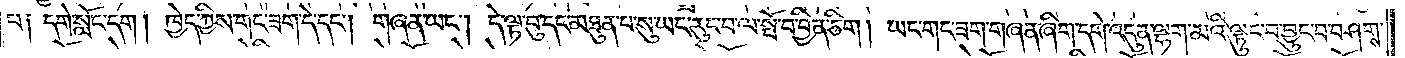པ། དགེ་སློང་དག། ཁྱེད་ཀྱིས་གང་ཟག་དེ་དང༌། གཞན་ཡང༌། དེ་ལྟ་བུ་དང་མཐུན་པ་སུ་ཡང་རུང་བ་ལ་སྤོ་བ་བྱིན་ཅིག། ཡང་གང་ཟག་གཞན་ཞིག་དགེ་འདུན་ལྷག་མའི་ལྟུང་བ་བྱུང་བ་བཤགས་
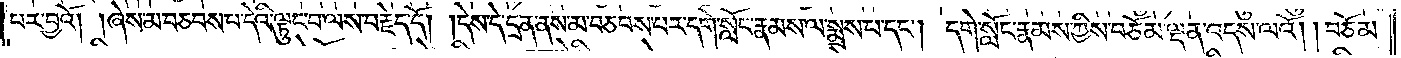པར་བྱའོ། །ཞེས་མ་བཅབས་པ་དེའི་ལྟུང་བ་ལས་བརྗེད་དོ། །དེས་དེ་དྲན་ནས་མ་བཅབས་པར་དགེ་སློང་རྣམས་ལ་སྨྲས་པ་དང༌། དགེ་སློང་རྣམས་ཀྱིས་བཅོམ་ལྡན་འདས་ལའོ། །བཅོམ་
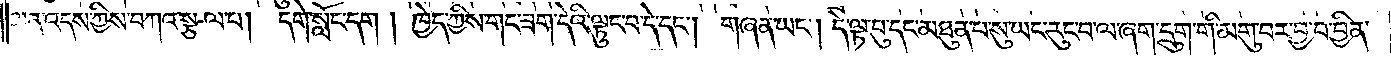ལྡན་འདས་ཀྱིས་བཀའ་སྩལ་པ། དགེ་སློང་དག། ཁྱེད་ཀྱིས་གང་ཟག་དེའི་ལྟུང་བ་དེ་དང༌། གཞན་ཡང༌། དེ་ལྟ་བུ་དང་མཐུན་པ་སུ་ཡང་རུང་བ་ལ་ཞག་དྲུག་གི་མགུ་བར་བྱ་བ་བྱིན་
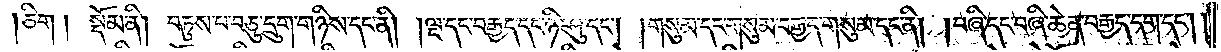ཅིག། སྡོམ་ནི། བཏུས་པ་བཅུ་དྲུག་གཉིས་དང་ནི། །ལྔ་དང་བརྒྱད་དང་ཉི་ཤུ་དང༌། །གསུམ་དང་གསུམ་བརྒྱད་གསུམ་དང་ནི། །བཞི་དང་བཞི་ཆེན་བརྒྱད་དག་དང༌། །
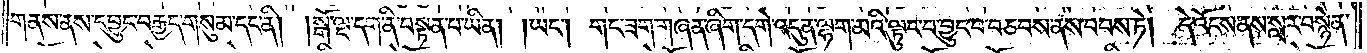གནས་ནས་དབྱུང་བརྒྱད་གསུམ་དང་ནི། །སྒོ་ལྔ་དག་ནི་བསྟན་པ་ཡིན། །ཡང༌། གང་ཟག་གཞན་ཞིག་དགེ་འདུན་ལྷག་མའི་ལྟུང་བ་བྱུང་བ་བཅབས་ནས་བབས་ཏེ། དེ་འོངས་ནས་སླར་བསྙེན་
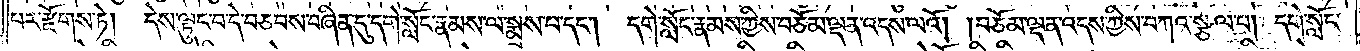པར་རྫོགས་ཏེ། དེས་ལྟུང་བ་དེ་བཅབས་བཞིན་དུ་དགེ་སློང་རྣམས་ལ་སྨྲས་པ་དང༌། དགེ་སློང་རྣམས་ཀྱིས་བཅོམ་ལྡན་འདས་ལའོ། །བཅོམ་ལྡན་འདས་ཀྱིས་བཀའ་སྩལ་པ། དགེ་སློང་
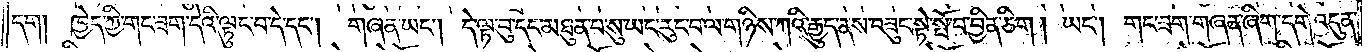དག། ཁྱེད་ཀྱི་གང་ཟག་དེའི་ལྟུང་བ་དེ་དང༌། གཞན་ཡང༌། དེ་ལྟ་བུ་དང་མཐུན་པ་སུ་ཡང་རུང་བ་ལ་གཉིས་ཀའི་རྒྱུད་ནས་བཟུང་སྟེ་སྤོ་བ་བྱིན་ཅིག །ཡང༌། གང་ཟག་གཞན་ཞིག་དགེ་འདུན་
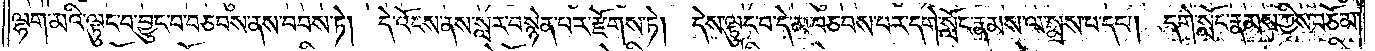ལྷག་མའི་ལྟུང་བ་བྱུང་བ་བཅབས་ནས་བབས་ཏེ། དེ་འོངས་ནས་སླར་བསྙེན་པར་རྫོགས་ཏེ། དེས་ལྟུང་བ་དེ་མ་བཅབས་པར་དགེ་སློང་རྣམས་ལ་སྨྲས་པ་དང༌། དགེ་སློང་རྣམས་ཀྱིས་བཅོམ་
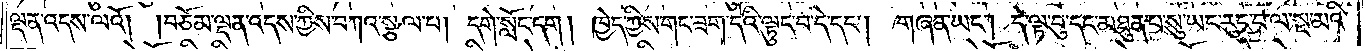ལྡན་འདས་ལའོ། །བཅོམ་ལྡན་འདས་ཀྱིས་བཀའ་སྩལ་པ། དགེ་སློང་དག། ཁྱེད་ཀྱིས་གང་ཟག་དེའི་ལྟུང་བ་དེ་དང༌། གཞན་ཡང༌། དེ་ལྟ་བུ་དང་མཐུན་པ་སུ་ཡང་རུང་བ་ལ་སྔ་མའི་
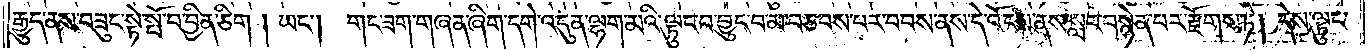རྒྱུད་ནས་བཟུང་སྟེ་སྤོ་བ་བྱིན་ཅིག། ཡང༌། གང་ཟག་གཞན་ཞིག་དགེ་འདུན་ལྷག་མའི་ལྟུང་བ་བྱུང་བ་མ་བཅབས་པར་བབས་ནས་དེ་འོངས་ནས་སླར་བསྙེན་པར་རྫོགས་ཏེ། དེས་ལྟུང་
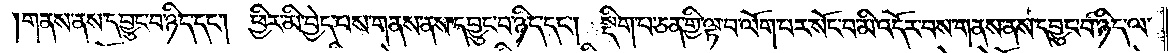གནས་ནས་དབྱུང་བ་ཉིད་དང༌། ཕྱིར་མི་བྱེད་པས་གནས་ནས་དབྱུང་བ་ཉིད་དང༌། སྡིག་པ་ཅན་གྱི་ལྟ་བ་ལོག་པར་སོང་བ་མི་འདོར་བས་གནས་ནས་དབྱུང་བ་ཉིད་ལ་
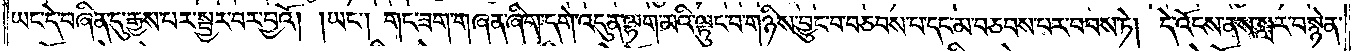ཡང་དེ་བཞིན་དུ་རྒྱས་པར་སྦྱར་བར་བྱའོ། །ཡང༌། གང་ཟག་གཞན་ཞིག་དགེ་འདུན་ལྷག་མའི་ལྟུང་བ་གཉིས་བྱུང་བ་བཅབས་པ་དང་མ་བཅབས་པར་བབས་ཏེ། དེ་འོངས་ནས་སླར་བསྙེན་
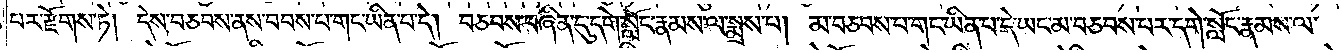པར་རྫོགས་ཏེ། དེས་བཅབས་ནས་བབས་པ་གང་ཡིན་པ་དེ། བཅབས་བཞིན་དུ་དགེ་སློང་རྣམས་ལ་སྨྲས་པ། མ་བཅབས་པ་གང་ཡིན་པ་དེ་ཡང་མ་བཅབས་པར་དགེ་སློང་རྣམས་ལ་
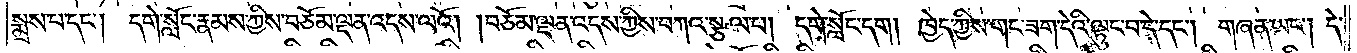སྨྲས་པ་དང༌། དགེ་སློང་རྣམས་ཀྱིས་བཅོམ་ལྡན་འདས་ལའོ། །བཅོམ་ལྡན་འདས་ཀྱིས་བཀའ་སྩལ་པ། དགེ་སློང་དག། ཁྱེད་ཀྱིས་གང་ཟག་དེའི་ལྟུང་བ་དེ་དང༌། གཞན་ཡང༌། དེ་
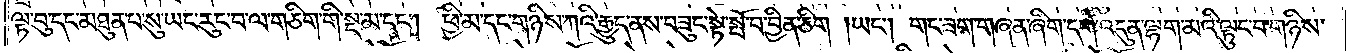ལྟ་བུ་དང་མཐུན་པ་སུ་ཡང་རུང་བ་ལ་གཅིག་གི་སྔ་མ་དང༌། ཕྱི་མ་དང་གཉིས་ཀའི་རྒྱུད་ནས་བཟུང་སྟེ་སྤོ་བ་བྱིན་ཅིག །ཡང༌། གང་ཟག་གཞན་ཞིག་དགེ་འདུན་ལྷག་མའི་ལྟུང་བ་གཉིས་
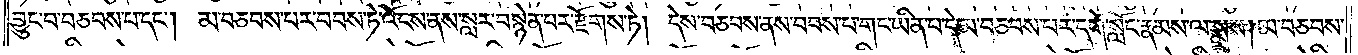བྱུང་བ་བཅབས་པ་དང༌། མ་བཅབས་པར་བབས་ཏེ་འོངས་ནས་སླར་བསྙེན་པར་རྫོགས་ཏེ། དེས་བཅབས་ནས་བབས་པ་གང་ཡིན་པ་དེ་མ་བཅབས་པར་དགེ་སློང་རྣམས་ལ་སྨྲས། མ་བཅབས་
